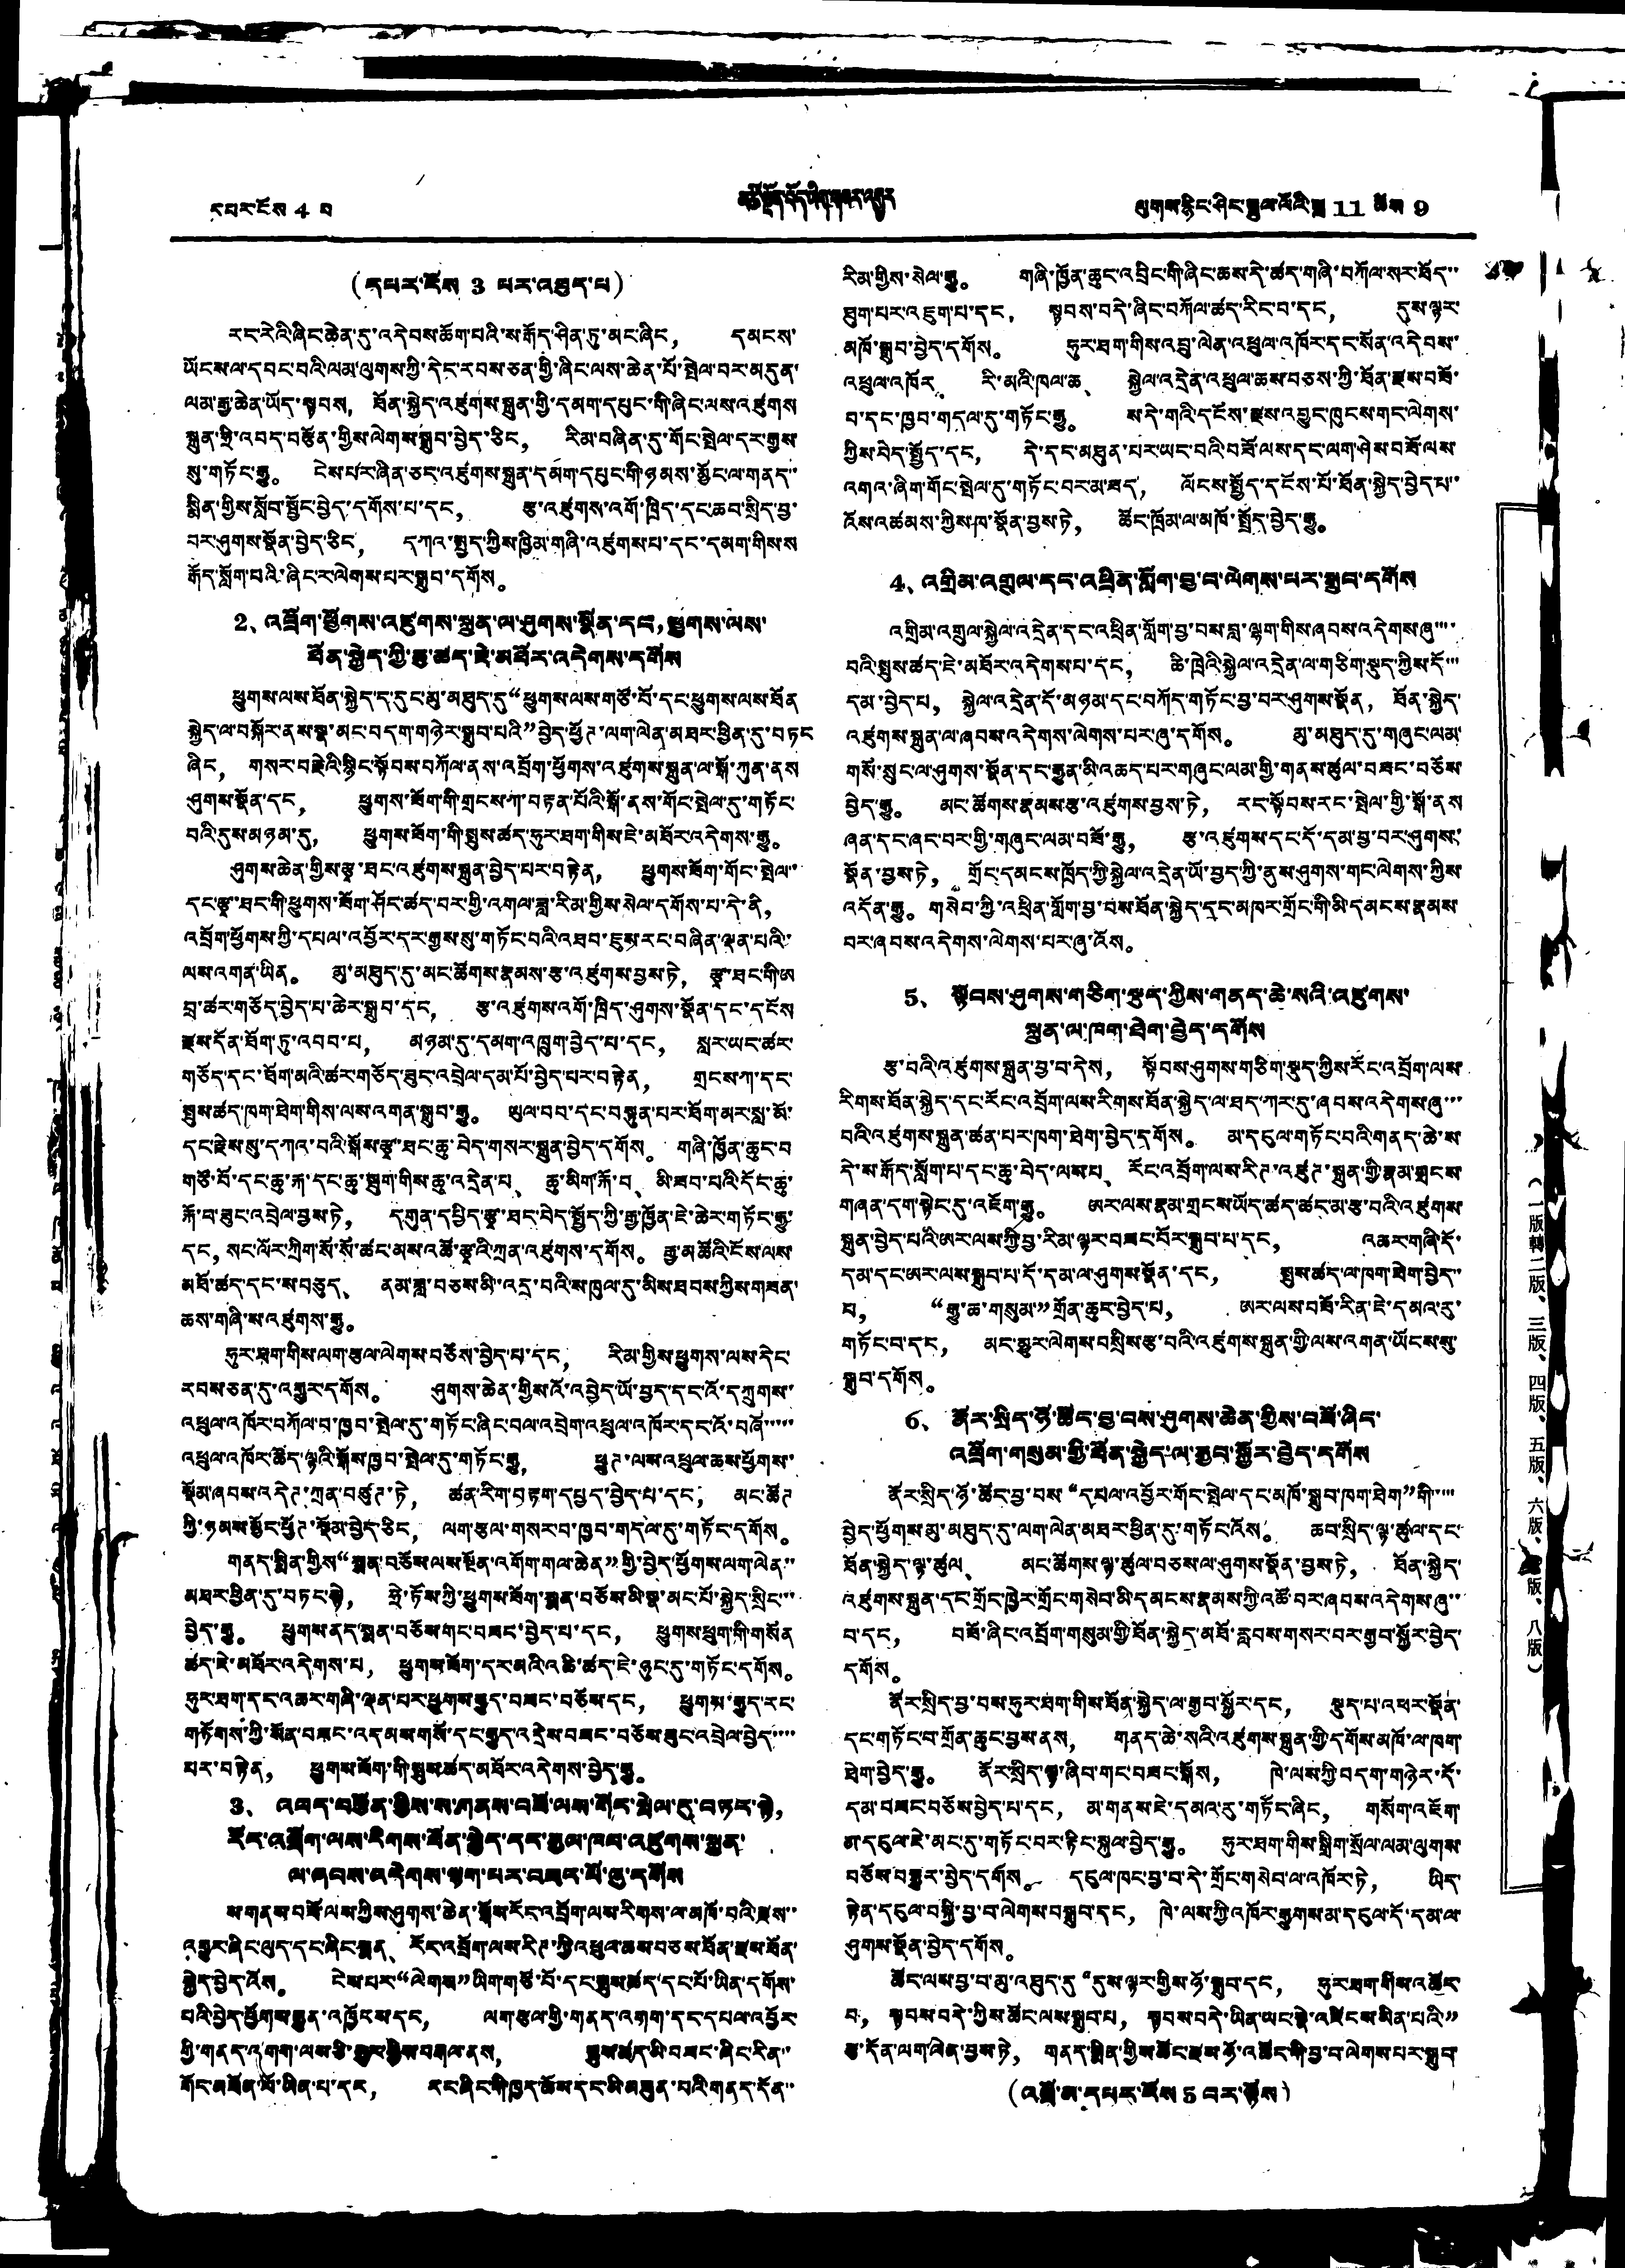དཔར་ངོས 4 པ མཚོ་སྔོན་བོད་ཡིག་གསར་འགྱུར ལུགས་རྙིང་ཤིང་སྦྲུལ་ལོའི་ཟླ 11 ཚེས 9
(དཔར་ངོས 3 པར་འཐུད་པ)
རང་རེའི་ཞིང་ཆེན་དུ་འདེབས་ཆོག་པའི་ས་རྒོད་ཤིན་ཏུ་མང་ཞིང， དམངས་
ཡོངས་ལ་དབང་བའི་ལམ་ལུགས་ཀྱི་དེད་རབས་ཅན་གྱི་ཞིང་ལས་ཆེན་པོ་སྤེལ་བར་མདུན་
ལམ་རྒྱ་ཆེན་ཡོད་སྟབས， ཐོན་སྐྱེད་འཛུགས་སྐྲུན་གྱི་དམག་དཔུང་གི་ཞིང་ལས་འཛུགས
སྐྲུན་ཧྲི་འབད་བརྩོན་གྱིས་ལེགས་སྒྲུབ་བྱེད་ཅིང， རིམ་བཞིན་དུ་གོང་སྤེལ་དར་རྒྱས་
སུ་གཏོང་རྒྱུ。 ངེས་པའ་ཞིན་ཅང་འཛུགས་སྐྲུན་དམག་དཔུང་གི་ཉམས་མྱོང་ལ་གནད་་
སྨིན་གྱིས་སློབ་སྦྱོང་བྱེད་དགོས་པ་དང， རྩ་འཛུགས་འགོ་ཁྲིད་དང་ཆབ་སྲིད་བྱ་
བར་ཤུགས་སྣོན་བྱེད་ཅིང， དཀའ་སྤྱད་ཀྱིས་ཁྱིམ་གཞི་འཛུགས་པ་དང་དམག་གིས་ས་
རྒོད་སློག་པའི་ཞིང་ར་ལེགས་པར་སྒྲུབ་དགོས。
2、འབྲོག་ཕྱོགས་འཛུགས་སྐྲུན་ལ་ཤུགས་སྣོན་དང，ཕྱུགས་ལས་
ཐོན་སྐྱེད་ཀྱི་ཆུ་ཚད་ཇེ་མཐོར་འདེགས་དགོས
ཕྱུགས་ལས་ཐོན་སྐྱེད་ད་དུང་མུ་མཐུད་དུ“ཕྱུགས་ལས་གཙོ་བོ་དང་ཕྱུགས་ལས་ཐོན
སྐྱེད་ལ་བསྐོར་ནས་སྣ་མང་བདག་གཉེར་སྒྲུབ་པའི”བྱེད་ཕྱོཊ་ལག་ལེན་མཐར་ཕྱིན་དུ་བཏང
ཞིང， གསར་བརྗེའི་སྙིང་སྟོབས་བཀོལ་ནས་འབྲོག་ཕྱོགས་འཛུགས་སྐྲུན་ལ་སྒོ་ཀུན་ནས
ཤུགས་སྣོན་དང， ཕྱུགས་ཟོག་གི་གྲངས་ཀ་བརྟན་པོའི་སྒོ་ནས་གོང་སྤེལ་དུ་གཏོང་
བའི་དུས་མཉམ་དུ， ཕྱུགས་ཟོག་གི་སྤུས་ཚད་ཧུར་ཐག་གིས་ཇེ་མཐོར་འདེགས་རྒྱུ。
ཤུགས་ཆེན་གྱིས་རྩྭ་ཐང་འཛུགས་སྐྲུན་བྱེད་པར་བརྟེན， ཕྱུགས་ཟོག་གོང་སྤེལ་་
དང་རྩྭ་ཐང་གི་ཕྱུགས་ཟོག་ཤོང་ཚད་བར་གྱི་འགལ་ཟླ་རིམ་གྱིས་སེལ་དགོས་པ་དེ་ནི，
འབྲོག་ཕྱོགས་ཀྱི་དཔལ་འབྱོར་དར་རྒྱས་སུ་གཏོང་བའི་འཐབ་ཇུས་རང་བཞིན་ལྡན་པའི་་
ལས་འགན་ཡིན。 མུ་མཐུད་དུ་མང་ཚོགས་རྣམས་རྩ་འཛུགས་བྱས་ཏེ， རྩྭ་ཐང་གི་ཨ
བྲ་ཚར་གཅོད་བྱེད་པ་ཆེར་སྒྲུབ་དང， རྩ་འཛུགས་འགོ་ཁྲིད་ཤུགས་སྣོན་དང་དངོས
རྫོས་དོན་ཐོག་ཏུ་འབབ་པ， མཉམ་དུ་དམག་འཁྲུག་བྱེད་པ་དང， སླར་ཡང་ཚར་
གཅོད་དང་ཐོག་མའི་ཚར་གཅོད་ཟུང་འབྲེལ་དམ་པོ་བྱེད་པར་བརྟེན， གྲངས་ཀ་དང་
སྤུས་ཚད་ཁག་ཐེག་གིས་ལས་འགན་སྒྲུབ་རྒྱུ。 ཡུལ་བབ་དང་བསྟུན་པར་ཐོག་མར་སླ་མོ་
དང་རྗེས་སུ་དཀའ་བའི་སྒོས་རྩྭ་ཐང་ཆུ་བེད་གསར་སྐྲུན་བྱེད་དགོས。 གཞི་ཁྱོན་ཆུང་བ་
གཙོ་བོ་དང་ཆུ་རྐ་དང་ཆུ་སྦུག་གིས་ཆུ་འདྲེན་པ、 ཆུ་མིག་རྐོ་བ、 མི་ཟབ་པའི་དོང་ཆུ་
རྐོ་བ་ཟུང་འབྲེལ་བྱས་ཏེ， དགུན་དཔྱིད་རྩྭ་ཐང་བེད་སྤྱོད་ཀྱི་རྒྱ་ཁྱོན་ཇེ་ཆེར་གཏོང་རྒྱུ་
དང， སང་ལོར་ཀྲིག་སོ་སོ་ཚང་མས་འཚོ་རྩྭའི་ཀྲན་འཛུགས་དགོས。 རྒྱ་མཚོའི་ངོས་ལས་
མཐོ་ཚད་དང་ས་བཅུད、 ནམ་ཟླ་བཅས་མི་འདྲ་བའི་ས་ཁུལ་དུ་མིས་ཐབས་ཀྱིས་གཟན་
ཆོས་གཞི་ས་འཛུགས་རྒྱུ。
ཧུར་ཐག་གིས་ལག་རྩལ་ལེགས་བཅོས་བྱེད་པ་དང， རིམ་གྱིས་ཕྱུགས་ལས་དེང་
རབས་ཅན་དུ་འགྱུར་དགོས。 ཤུགས་ཆེན་གྱིས་འོ་འབྱེད་ཡོ་བྱད་དང་འོ་དཀྲུགས་
འཕྲུལ་འཁོར་བཀོལ་བ་ཁྱབ་སྤེལ་དུ་གཏོང་ཞིང་བལ་འབྲེག་འཕྲུལ་འཁོར་དང་འོ་བཞོ་་་་་་
འཕྲུལ་འཁོར་ཚོད་ལྟའི་སྒོས་ཁྱབ་སྤེལ་དུ་གཏོང་རྒྱུ， ཕྱུཊ་ལས་འཕྲུལ་ཆས་ཕྱོགས་
སྡོམ་ཞབས་འདེཊ་ཀྲན་བཙུཊ་ཏེ， ཚན་རིག་བརྟག་དཔྱད་བྱེད་པ་དང， མང་ཚོཊ
ཀྱི་ཉམས་མྱོང་ཕྱོཊ་སྡོམ་བྱེད་ཅིང， ལག་རྩལ་གསར་བ་ཁྱབ་གདལ་དུ་གཏོང་དགོས。
གནད་སྨིན་གྱིས“སྨན་བཅོས་ལས་སྔོན་འགོག་གལ་ཆེན”གྱི་བྱེད་ཕྱོགས་ལག་ལེན་་
མཐར་ཕྱིན་དུ་བཏང་སྟེ， ཧྲེ་ཏོས་ཀྱི་ཕྱུགས་ཟོག་སྨན་བཅོས་མི་སྣ་མང་པོ་སྐྱེད་སྲིང་་་
བྱེད་རྒྱུ。 ཕྱུགས་ནད་སྨན་བཅོས་གང་བཟང་བྱེད་པ་དང， ཕྱུགས་ཕྲུག་གི་གསོན
ཚད་རེ་མཐོར་འདེགས་པ， ཕྱུགས་ཕོག་དར་མའི་འཆི་ཚད་ཇེ་ཉུང་དུ་གཏོང་དགོས。
ཧུར་ཐག་དང་འཆར་གཞི་ལྡན་པར་ཕྱུགས་རྒྱུད་བཟང་བཅོས་དང， ཕྱུགས་རྒྱུད་རང་
གཏོགས་ཀྱི་སོན་བཟང་འདམས་གསོ་དང་རྒྱུད་འདྲེས་བཟང་བཅོས་ཟུང་འབྲེལ་བྱེད་་་་
པར་བརྟེན， ཕྱུགས་ཟོག་གི་སྤུས་ཚད་མཐོར་འདེགས་བྱེད་རྒྱུ。
3、 འཕད་བརྩོན་གྱིས་ས་གནས་འཕོ་ལས་སོར་སྤེལ་རུ་བཏར་སྟེ，
རོར་འབྲོག་ལས་རིགས་ཐོན་སྐྱེད་དར་རྒྱལ་ཁབ་འཛུགས་སྐྲུན་
ལ་ཞབས་མདེགས་ལྷག་པར་བཟར་པོ་ཞུ་དགོས
ས་གནས་བཟོ་ལས་ཀྱིས་ཤུགས་ཆེན་སྒོས་རོང་འབྲོག་ལས་རིགས་ལ་མཁོ་བའི་རྫས་་
འགྱུར་ཞིང་ལུད་དང་ཞིང་སྨན、 རོང་འབྲོག་ལས་རིཊ་ཀྱི་འཕྲུལ་ཆས་བཅས་ཐོན་རྫས་ཐོན་
སྐྱེད་བྱེད་འོས。 ངེས་པར“ལེགས”ཡིག་གཙོ་བོ་དང་སྤུས་ཚད་དང་པོ་ཡིན་དགོས་
པའི་བྱེད་ཕྱོགས་སྨུན་འཁྱོངས་དང， ལག་རྩལ་གྱི་གནད་འགག་དང་དཔལ་འབྱོར་
གྱི་གནད་འགག་ལས་ཅྱི་མྱུར་གྱིས་བརྒལ་ནས， སྤུས་ཚད་མི་བཟང་ཞིང་རིན་་
གོང་མཐོན་ལོ་ཡིན་པ་དང， རང་ཞིང་གི་ཁྱད་ཆོས་དང་མི་མཐུན་པའི་གནད་དོན་་
རིམ་གྱིས་སེལ་རྒྱུ。 གཞི་ཁྱོན་ཆུང་འབྲིང་གི་ཞིང་ཆས་རེ་ཚད་གཞི་བཀོལ་སར་ཐོད་་
ཐུག་པར་འཇུག་པ་དང， སྟབས་བདེ་ཞིང་བཀོལ་ཚད་རིང་བ་དང， དུས་ལྟར་
མཁོ་སྒྲུབ་བྱེད་དགོས。 ཧུར་ཐག་གིས་འབྲུ་ལེན་འཕྲུལ་འཁོར་དང་སོན་འདེབས་
འཕྲུལ་འཁོར， རི་མའི་ཁལ་ཆ、 སྐྱེལ་འདྲེན་འཕྲུལ་ཆས་བཅས་ཀྱི་ཐོན་རྫས་བཟོ་
བ་དང་ཁྱབ་གདལ་དུ་གཏོང་རྒྱུ。 ས་དེ་གའི་དངོས་རྫས་འབྱུང་ཁུངས་གང་ལེགས་
ཀྱིས་བེད་སྤྱོད་དང， དེ་དང་མཐུན་པར་ཡང་བའི་བཟོ་ལས་དང་ལག་ཤེས་བཟོ་ལས་
འགའ་ཞིག་གོང་སྤེལ་དུ་གཏོང་བར་མ་ཟད， ལོངས་སྤྱོད་དངོས་པོ་ཐོན་སྐྱེད་བྱེད་པ་་
འོས་འཚམས་ཀྱིས་ཁ་སྣོན་བྱས་ཏེ， ཚོང་ཁྲོམ་ལ་མཁོ་སྤྲོད་བྱེད་རྒྱུ。
4、 འགྲིམ་འགྲུལ་དང་འཕྲིན་གློག་བྱ་བ་ལེགས་པར་སྒྲུབ་དགོས
འགྲིམ་འགྲུལ་སྐྱེལ་འདྲེན་དང་འཕྲིན་གློག་བྱ་བས་བླ་ལྷག་གིས་ཞབས་འདེགས་ཞུ་་་་་
བའི་སྤུས་ཚད་ཇེ་མཐོར་འདེགས་པ་དང， ཆི་ཁྲེའི་སྐྱེལ་འདྲེན་ལ་གཅིག་སྡུད་ཀྱིས་དོ་་་
དམ་བྱེད་པ， སྐྱེལ་འདྲེན་དོ་མཉམ་དང་བཀོད་གཏོང་བྱ་བར་ཤུགས་སྣོན， ཐོན་སྐྱེད་
འཛུགས་སྐྲུན་ལ་ཞབས་འདེགས་ལེགས་པར་ཞུ་དགོས。 མུ་མཐུད་དུ་གཞུང་ལམ་
གསོ་སྲུང་ལ་ཤུགས་སྣོན་དང་རྒྱུན་མི་འཆད་པར་གཞུང་ལམ་གྱི་གནས་ཚུལ་བཟང་བཅོས་
བྱེད་རྒྱུ。 མང་ཚོགས་རྣམས་རྩ་འཛུགས་བྱས་ཏེ， རང་སྟོབས་རང་སྤེལ་གྱི་སྒོ་ནས་
ཞན་དང་ཞང་བར་གྱི་གཞུང་ལམ་བཟོ་རྒྱུ， རྩ་འཛུགས་དང་དོ་དམ་བྱ་བར་ཤུགས་
སྣོན་བྱས་ཏེ， གྲོང་དམངས་ཁྲོད་ཀྱི་སྐྱེལ་འདྲེན་ཡོ་བྱད་ཀྱི་ནུས་ཤུགས་གང་ལེགས་ཀྱིས་
འདོན་རྒྱུ。 གསེབ་ཀྱི་འཕྲིན་གློག་བྱ་བས་ཐོན་སྐྱེད་དང་མཁར་གྲོང་གི་མི་དམངས་རྣམས་
བར་ཞབས་འདེགས་ལེགས་པར་ཞུ་འོས。
5、 སྟོབས་ཤུགས་གཅིག་སྡུད་ཀྱིས་གནད་ཆེ་སའི་འཛུགས་
སྐྲུན་ལ་ཁག་ཐེག་བྱེད་དགོས
རྩ་བའི་འཛུགས་སྐྲུན་བྱ་བ་དེས， སྟོབས་ཤུགས་གཅིག་སྡུད་ཀྱིས་རོང་འབྲོག་ལས་
རིགས་ཐོན་སྐྱེད་དང་རོང་འབྲོག་ལས་རིགས་ཐོན་སྐྱེད་ལ་ཐད་ཀར་དུ་ཞབས་འདེགས་ཞུ་་་
བའི་འཛུགས་སྐྲུན་ཚན་པར་ཁག་ཐེག་བྱེད་དགོས。 མ་དངུལ་གཏོང་བའི་གནད་ཆེ་ས་
དེ་ས་རྒོད་སློག་པ་དང་ཆུ་བེད་ལས་པ、 རོང་འབྲོག་ལས་རིཊ་འཛུཊ་སྐྲུན་གྱི་རྣམ་གྲངས་
གཞན་དག་སྟེང་དུ་འཇོག་རྒྱུ。 ཨར་ལས་རྣམ་གྲངས་ཡོད་ཚད་ཚང་མ་རྩ་བའི་འཛུགས་
སྐྲུན་བྱེད་པའི་ཨར་ལས་ཀྱི་བྱ་རིམ་ལྟར་བཟང་བོར་སྒྲུབ་པ་དང， འཆར་གཞི་དོ་
དམ་དང་ཡར་ལས་སྒྲུབ་པ་དོ་དམ་ལ་ཤུགས་སྣོན་དང， སྤུས་ཚད་ལ་ཁག་ཐེག་བྱེད་་
པ， “རྒྱུ་ཆ་གསུམ་”གྲོན་ཆུར་བྱེད་པ， ཨར་ལས་བཟོ་རིན་ཇེ་དམའ་རུ་
གཏོང་བ་དང， མང་མྱུར་ལེགས་བསྲིས་རྩ་བའི་འཛུགས་སྐྲུན་གྱི་ལས་འགན་ཡོངས་སུ་
སྒྲུབ་དགོས。
6、 ནོར་སྲིད་ཉོ་ཚོང་བྱ་བས་ཤུགས་ཆེན་གྱིས་བཟོ་ཞིང་
འབྲོག་གསུམ་གྱི་ཐོན་སྐྱེད་ལ་རྒྱབ་སྐྱོར་བྱེད་དགོས
ནོར་སྲིད་ཉོ་ཚོང་བྱ་བས“དཔལ་འབྱོར་གོང་སྤེལ་དང་མཁོ་སྒྲུབ་ཁག་ཐེག”གི་་་་་
བྱེད་ཕྱོགས་མུ་མཐུད་དུ་ལག་ལེན་མཐར་ཕྱིན་དུ་གཏོང་འོས。 ཆབ་སྲིད་ལྟ་ཚུལ་དང་
ཐོན་སྐྱེད་ལྟ་ཚུལ、 མང་ཚོགས་ལྟ་ཚུལ་བཅས་ལ་ཤུགས་སྣོན་བྱས་ཏེ， ཐོན་སྐྱེད་
འཛུགས་སྐྲུན་དང་གྲོང་ཁྱེར་གྲོང་གསེབ་མི་དམངས་རྣམས་ཀྱི་འཚོ་བར་ཞབས་འདེགས་ཞུ་་་
བ་དང， བཟོ་ཞིང་འབྲོག་གསུམ་གྱི་ཐོན་སྐྱེད་མཐོ་རླབས་གསར་བར་རྒྱབ་སྐྱོར་བྱེད་
དགོས。
ནོར་སྲིད་བྱ་བས་ཧུར་ཐག་གིས་ཐོན་སྐྱེད་ལ་རྒྱབ་སྐྱོར་དང， སྡུད་པ་འཕར་སྣོན་
དང་གཏོང་བ་གྲོན་ཆུང་བྱས་ནས， གནད་ཆེ་སའི་འཛུགས་སྐྲུན་གྱི་དགོས་མཁོ་ལ་ཁག་
ཐེག་བྱེད་རྒྱུ。 ནོར་སྲིད་ལྟ་ཞིབ་གང་བཟང་སྒོས， ཁེ་ལས་ཀྱི་བདག་གཉེར་དོ་
དམ་བཟང་བཅོས་བྱེད་པ་དང， མ་གནས་ཇེ་དམའ་རུ་གཏོང་ཞིང， གསོག་འཇོག་
མ་དངུལ་ཇེ་མང་དུ་གཏོང་བར་རྟིང་སྐུལ་བྱེད་རྒྱུ。 ཧུར་ཐག་གིས་སྒྲིག་སྲོལ་ལམ་ལུགས་
བཅོས་བསྒྱུར་བྱེད་དགོས。 དངུལ་ཁང་བྱ་བ་དེ་གྲོང་གསེབ་ལ་འཁོར་ཏེ， ཡིད་
ཉྟེན་དངུལ་བསྐྱི་བྱ་བ་ལེགས་བསྒྲུབ་དང， ཁེ་ལས་ཀྱི་འཁོར་རྒྱུགས་མ་དངུལ་དོ་དམ་ལ་
ཤུགས་སྣོན་བྱེད་དགོས。
ཚོང་ལས་བྱ་བ་མུ་འཐུད་དུ“དུས་ལྟར་གྱིས་ཉོ་སྒྲུབ་དང， ཧུར་ཐག་གིས་འཚོར་
བ， སྟབས་བདེ་ཀྱིས་ཚོང་ལས་སྒྲུབ་པ， སྟབས་བདེ་ཡིན་ཡང་སྣེ་འཛིངས་མིན་པའི་”
རྩ་དོན་ལག་ལེན་བྱས་ཏེ， གནད་སྨིན་གྱིས་ཚོང་རྫམ་ཉོ་འཚོང་གི་བྱ་བ་ལེགས་པར་སྒྲུབ་
(འཕྲོ་མ་དཔར་རོས 5 བར་ལྟོས)
